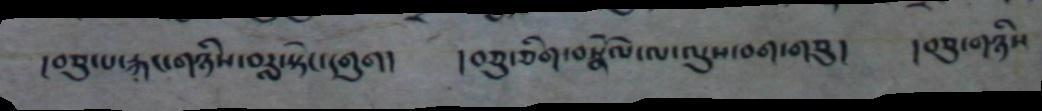།བཅུ་པ་རྐང་གཉིས་བརླ་སྟེང་དགུག། །བཅུ་ཅིག་བསྣོལ་ལ་ལུས་བག་གཅུ།  །བཅུ་གཉིས
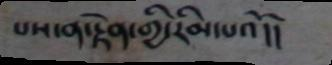པས་ན་རྟེན་གྱི་རིམ་པའོ།།
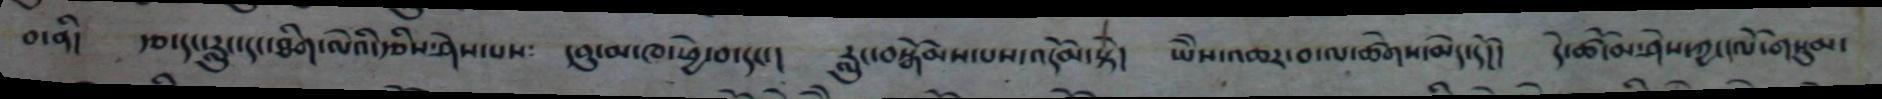བ་ནི། རྩ་དང་རླུང་དང་ཐིག་ལེའི་རྩིས་ཤེས་པས༴ དབུ་མ་ཁ་ཕྱེ་བ་དང་། རླུང་བསྒོམས་པས་འདོམ་སྟེ། ཡཻས་འཆར་བ་ལ་ཚེགས་མེད་དོ།། དེ་ཚོ་མ་ཤེས་ཀྱང་ལོ་གསུམ་
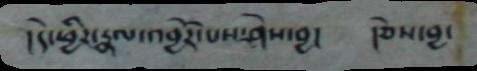།དེ་ཕྱིར་རྣལ་འབྱོར་པས་ཤེས་བྱ། །ཅེས་བྱ་
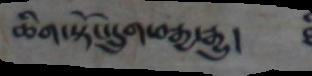ཆིག་སྟོང་དྲུག་བརྒྱ་རྒྱུ།
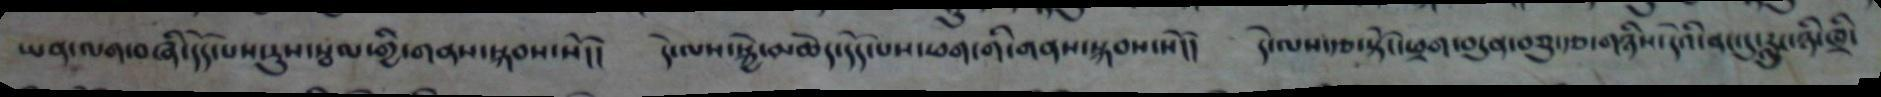ཡན་ལག་བཞི་དོད་པས་རུས་སྦལ་གྱི་གནས་སྐབས་སོ།། དེ་ལས་སྐྱེ་མཆེད་དོད་པས་ཕག་གི་གནས་སྐབས་སོ།། དེ་ལས་རྩ་སྟོང་ཕྲག་བདུན་བཅུ་རྩ་གཉིས་དེའི་ནང་དུ་རླུང་ཉི་ཁྲི་
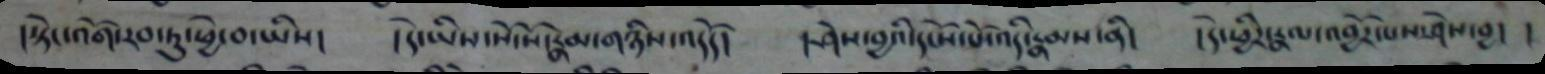།སྟེང་འོག་རབ་ཏུ་ཕྱེ་བ་ཡིས། །དེ་ཡིས་སོ་སོ་རྣམ་གཉིས་འདོད། །ཤེས་བྱའི་དངོས་པོ་འདི་རྣམས་ནི། །དེ་ཕྱིར་རྣལ་འབྱོར་པས་ཤེས་བྱ། །
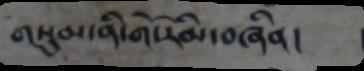གསུམ་ནི་གོ་རིམ་བཞིན།
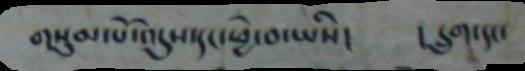གསུམ་པོ་འདུས་དང་ཕྱེ་བ་ཡིས། །དྲུག་དང་
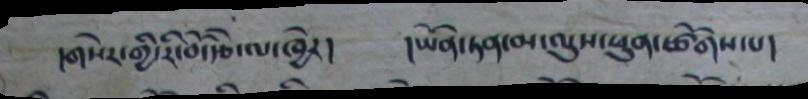།གསེར་གྱི་རི་བོ་རྩེ་ལ་ཁྱེར། །ཡོན་ཏན་མ་ལུས་ཕུན་ཚོགས་པ།
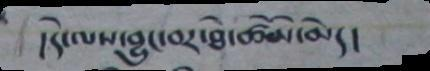།དེ་ལས་བྱུང་བར་ཐེ་ཚོམ་མེད།
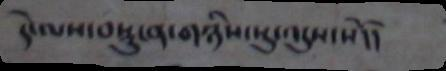དེ་ལས་བསྡུ་ན་གཉིས་སུ་འདུས་སོ།།
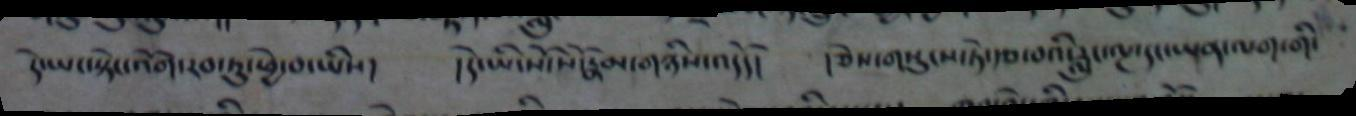དེ་ཡང་སྟེང་འོག་རབ་ཏུ་ཕྱེ་བ་ཡིས། །དེ་ཡི་སོ་སོ་རྣམ་གཉིས་འདོད། །ཅེས་གསུངས་ཏེ་རྩ་བའི་རླུང་ལྔ་དང་ཡན་ལག་གི་
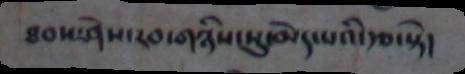ཐབས་ཤེས་རབ་གཉིས་སུ་ྱམེད་པའི་རྩ་སྟེ།
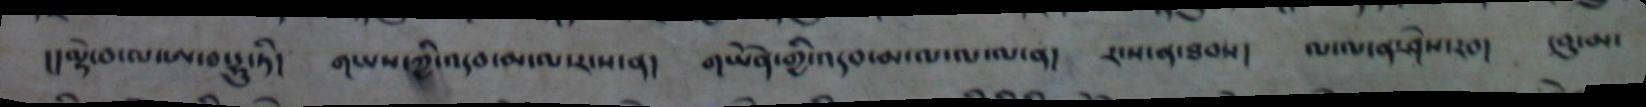།།ལྟེ་བ་ལ་ཨ་བ་དྷུ་ཏི། གཡས་ཀྱི་འདབ་ལ་ར་ས་ན། གཡོན་གྱི་འདབ་མ་ལ་ལ་ལ་ན། ར་ས་ན་ཐབས། ལ་ལ་ན་ཤེས་རབ། དབུ་མ་
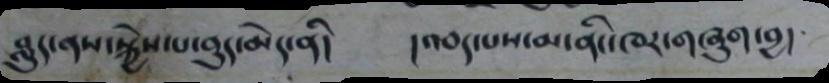བླུད་ནས་སྐྱེས་པ་བུད་མེད་ནི། །འབད་པས་མ་ནིང་ཁར་གཞུག་བྱ།
